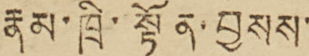རྣམ་ཁྲི་སྟོན་བྱསས་
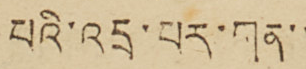པའི་འདྲ་པར་གན་་་
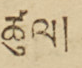ཚུལ།
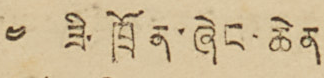༤ ཟི་ཁྲོན་ཞེང་ཆེན
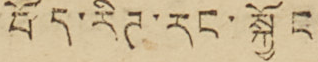བོད་རིཊ་རང་སྐྱོང
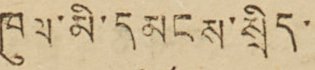ཁུལ་མི་དམངས་སྲིད་
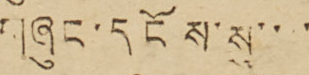གཞུང་དངོས་སུ་་་
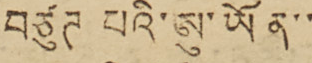བཙུཊ པའི་ཨུ་ཡོན་་
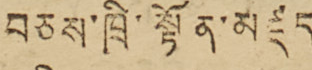བཅས་ཁྲི་སྟོན་མཛད
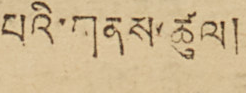པའི་གནས་ཚུལ།
